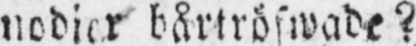nodier bårtröfwade?
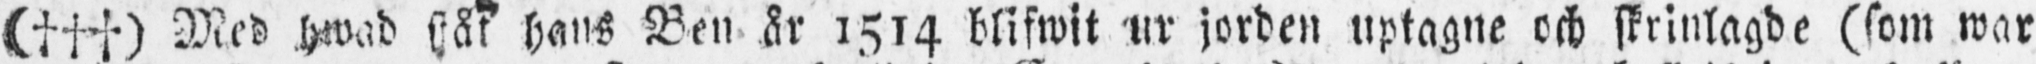(†††) Med hwad sjåt hans Ben år 1514 blifwit ur jorden uptagne och skrinlagde (som war
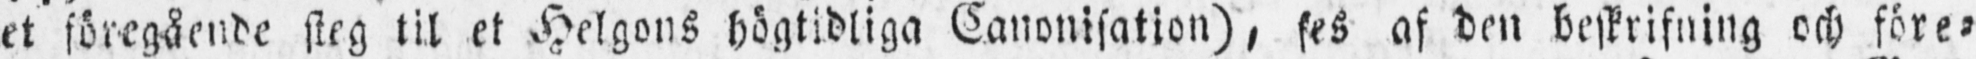et föregående steg til et Helgons högtidliga Canonisation), ses af den beskrifning och före-
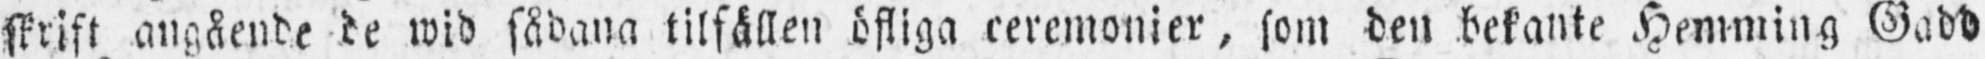skrift angående de wid sådana tilfällen öfliga ceremonier, som den bekante Hemming Gadd
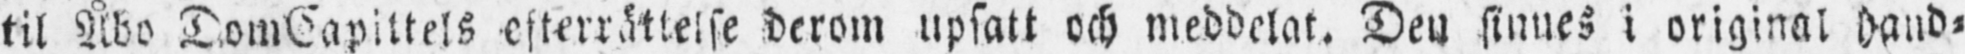til Åbo DomKapittels efterrättelse derom upsatt och meddelat. Den sinnes i original hand-
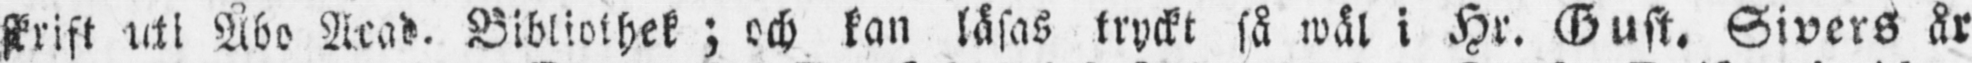skrift uti Åbo Acad. Bibliothek; och kan läsas tryckt så wäl i Hr. Gust. Sivers år
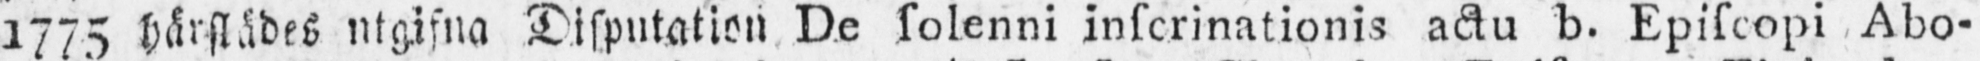1775 härstädes utgifna Disputation De solenni inscrinationis actu b. Episcopi Abo-
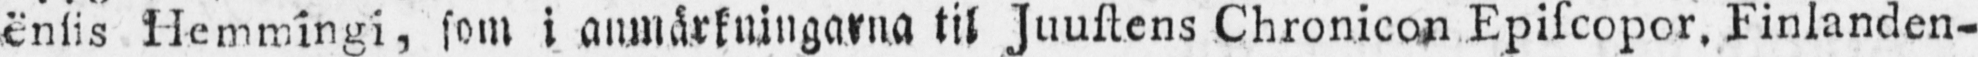ensis Hemmingi, som i anmärkningarna til Juustens Chronicon Episcopor. Finlanden-
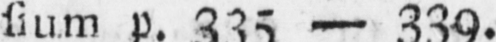sium p. 335 — 339.
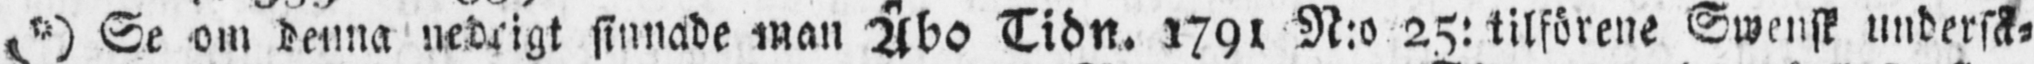(*) Se om denna nedrigt sinnade man Åbo Tidn. 1791 N:o 25: tilförene Swensk underså-
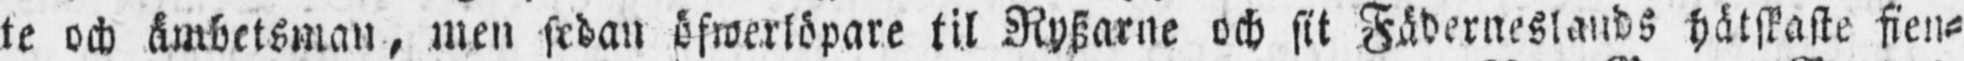te och ämbetsman, men sedan öfwerlöpare til Ryszarne och sit Fäderneslands hätskaste fien-
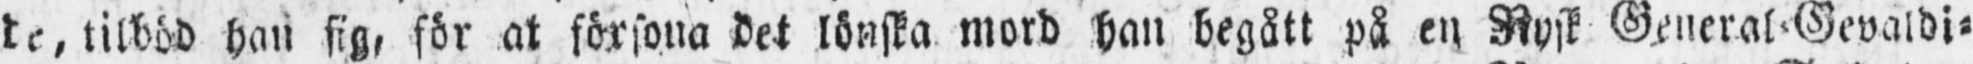de, tilböd han sig, för at försona det lönska mord han begått på en Rysk General Gevaldi-
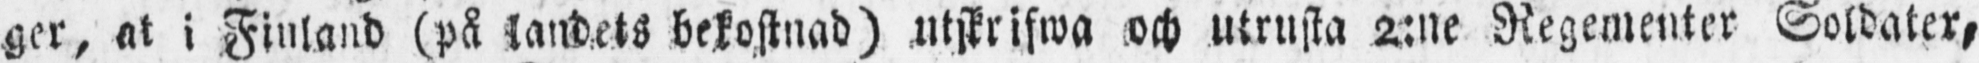ger, at i Finland (på landets bekostnad) utskrifwa och utrusta 2:ne Regementer Soldater,
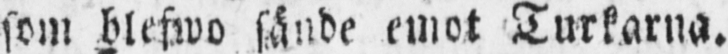som blefwo sände emot Turkarna.
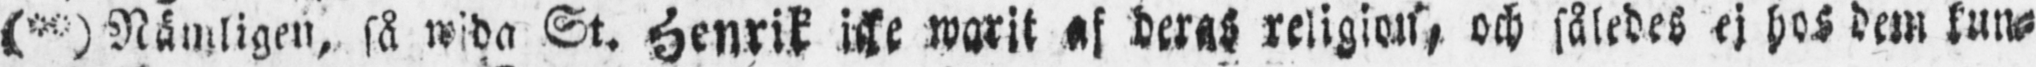(**) Nämligen, så wida St. Henrik icke warit af deras religion, och således ej hos dem kun-
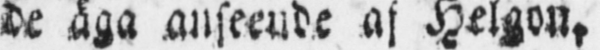de äga anseende af Helgon.
